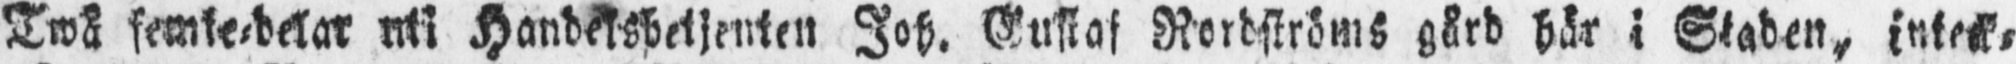Twå femte-delar uti Handelsbetjensten Joh. Gustaf Rordströms gård här i Staden, inteck-
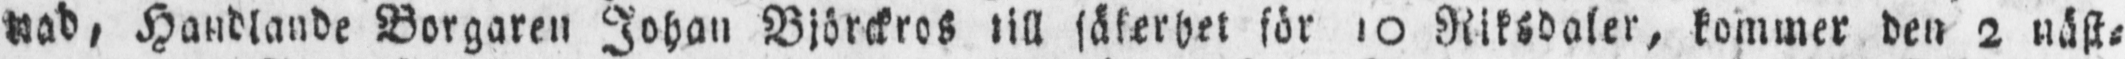nad, Handlande Borgaren Johan Björckros till säkerhet för 10 Riksdaler, kommer den 2 näst-
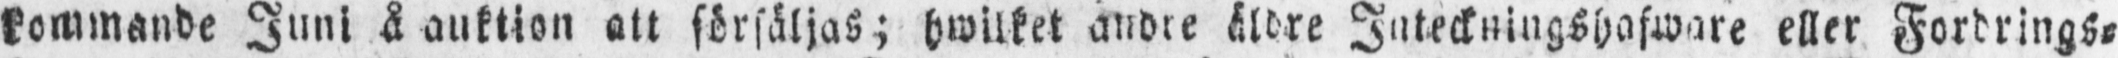kommande Juni å auktion att försäljas; hwilket andre äldre Inteckningshafware eller Fordrings-
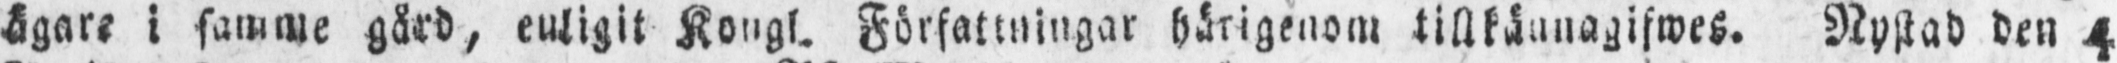ägare i samme gård, enligit Kongl. Författningar härigenom tillkännagifwes. Nystad den 4
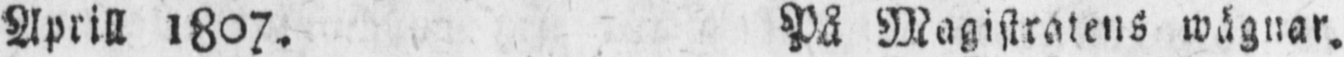Aprill 1807. På Magistratens wägnar.
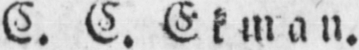C. C. Ekman.
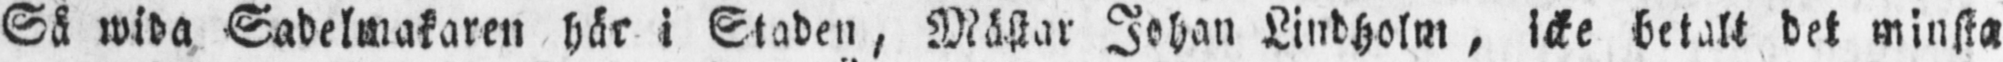Så wida Sadelmakaren här i Staden, Mästar Johan Lindholm, icke betalt det minsta
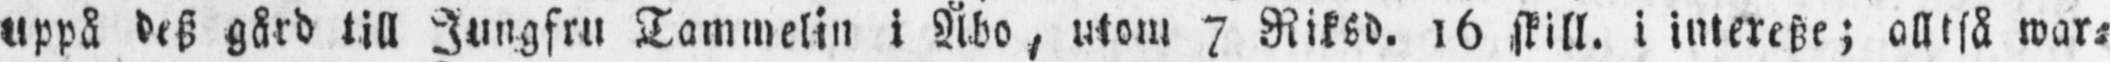uppå desz gård till Jungfru Tammelin i Åbo, utom 7 Riksd. 16 skill. i interesze; alltså war-
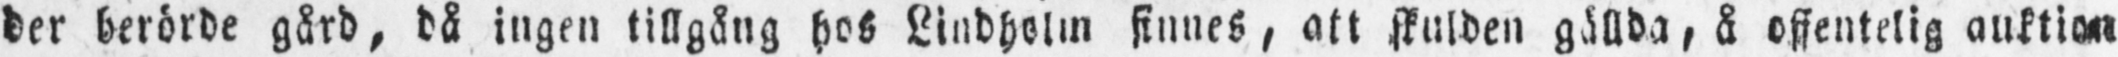der berörde gård, då ingen tillgång hos Lindholm sinnes, att skulden gällda, å offentelig auktion
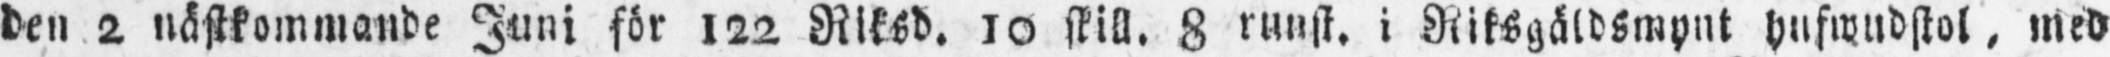den 2 nästkommande Juni för 122 Riksd. 10 skill. 8 runst. i Riksgäldsmynt hufwudstol, med
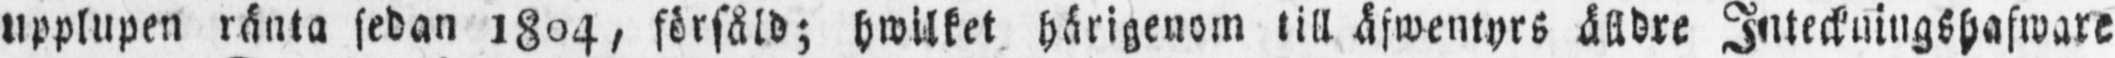upplupen ränta sedan 1804, försåld; hwilket härigenom till äfwentyrs älldre Inteckningshafware
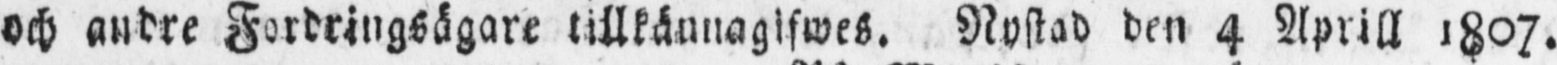och andre Fordringsägare tillkännagifwes. Nystad den 4 Aprill 1807.
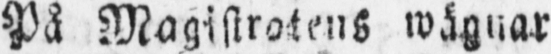På Magistratens wägnar
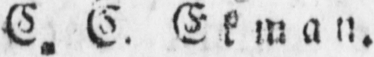C. C. Ekman.
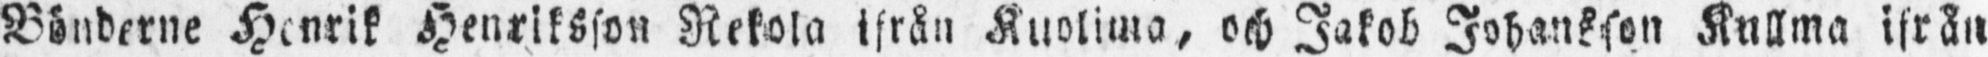Bönderne Henrik Henriksson Rekola ifrån Kuolima, och Jakob Johansson Kullma ifrån
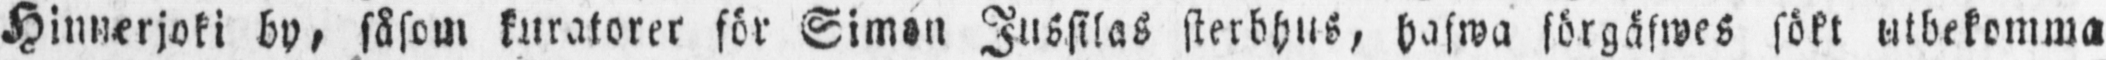Hinnerjoki by, såsom kuratorer för Simon Jussilas sterbhus, hafwa förgäfwes sökt utbekomma
